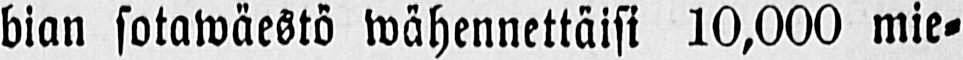bian sotawäestö wähennettäisi 10,000 mie-
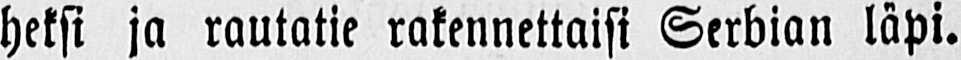heksi ja rautatie rakennettaisi Serbian läpi.
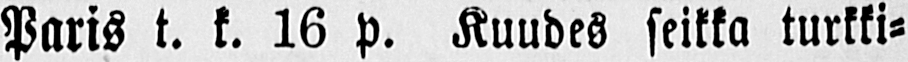Paris t. k. 16 p. Kuudes seikka turkki-
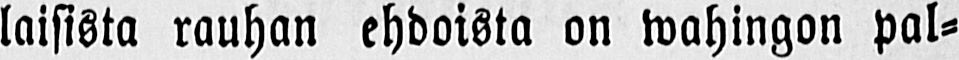laisista rauhan ehdoista on wahingon pal-
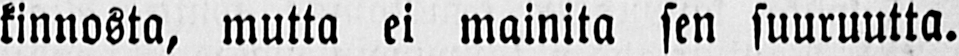kinnosta, mutta ei mainita sen suuruutta.
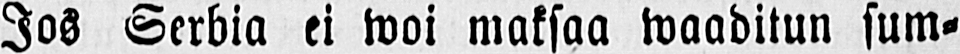Jos Serbia ei woi maksaa waaditun sum-
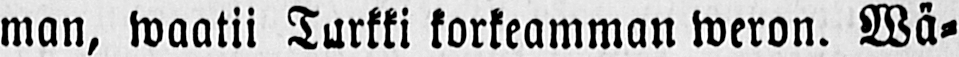man, waatii Turkki korkeamman weron. Wä-
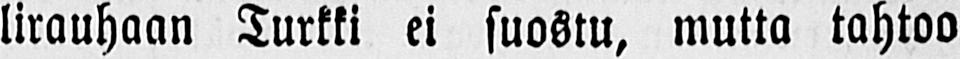lirauhaan Turkki ei suostu, mutta tahtoo
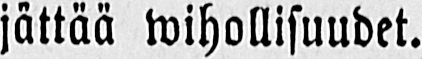jättää wihollisuudet.
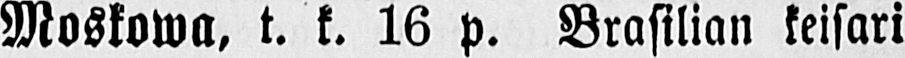Moskowa, t. k. 16 p. Brasilian keisari
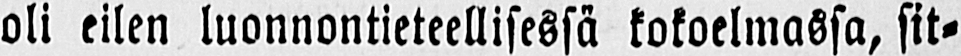oli eilen luonnontieteellisessä kokoelmassa, sit-
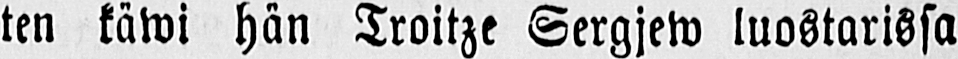ten käwi hän Troitze Sergjew luostarissa
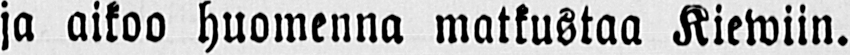ja aikoo huomenna matkustaa Kiewiin.
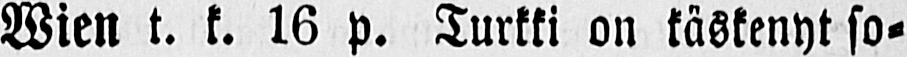Wien t. k. 16 p. Turkki on käskenyt so-
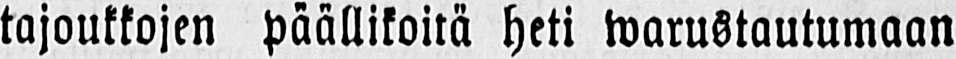tajoukkojen päälliköitä heti warustautumaan
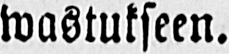wastukseen.
